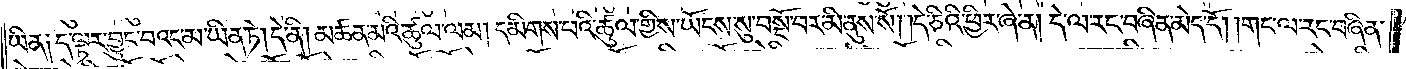ཡིན༑ ད་ལྟར་བྱུང་བའང་མ་ཡིན་ཏེ། དེ་ནི། མཚན་མའི་ཚུལ་ལམ། དམིགས་པའི་ཚུལ་གྱིས་ཡོངས་སུ་བསྔོ་བར་མི་ནུས་སོ། །དེ་ཅིའི་ཕྱིར་ཞེ་ན། དེ་ལ་རང་བཞིན་མེད་དོ། །གང་ལ་རང་བཞིན་
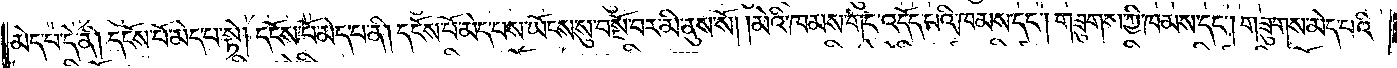མེད་པ་དེ་ནི། དངོས་པོ་མེད་པ་སྟེ། དངོས་པོ་མེད་པ་ནི། དངོས་པོ་མེད་པས་ཡོངས་སུ་བསྔོ་བར་མི་ནུས་སོ། །མེའི་ཁམས་གང་འདོད་པའི་ཁམས་དང༌། གཟུགས་ཀྱི་ཁམས་དང༌། གཟུགས་མེད་པའི་
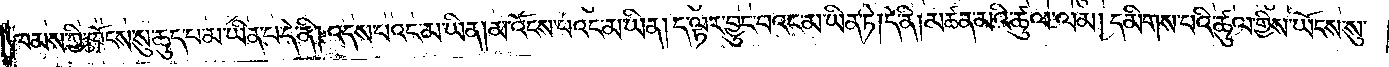ཁམས་ཀྱི་ཁོངས་སུ་ཆུད་པ་མ་ཡིན་པ་དེ་ནི། འདས་པའང་མ་ཡིན། མ་འོངས་པའང་མ་ཡིན། ད་ལྟར་བྱུང་བའང་མ་ཡིན་ཏེ། དེ་ནི། མཚན་མའི་ཚུལ་ལམ། དམིགས་པའི་ཚུལ་གྱིས་ཡོངས་སུ་
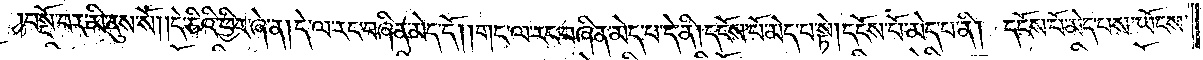བསྔོ་བར་མི་ནུས་སོ། །དེ་ཅིའི་ཕྱིར་ཞེ་ན། དེ་ལ་རང་བཞིན་མེད་དོ། །གང་ལ་རང་བཞིན་མེད་པ་དེ་ནི། དངོས་པོ་མེད་པ་སྟེ། དངོས་པོ་མེད་པ་ནི། དངོས་པོ་མེད་པས་ཡོངས་
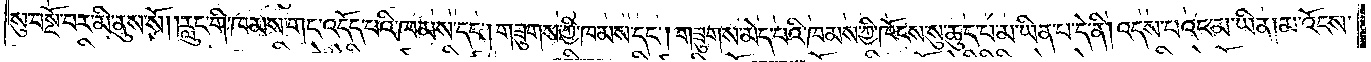སུ་བསྔོ་བར་མི་ནུས་སོ། །རླུང་གི་ཁམས་གང་འདོད་པའི་ཁམས་དང༌། གཟུགས་ཀྱི་ཁམས་དང༌། གཟུགས་མེད་པའི་ཁམས་ཀྱི་ཁོངས་སུ་ཆུད་པ་མ་ཡིན་པ་དེ་ནི། འདས་པའང་མ་ཡིན། མ་འོངས་
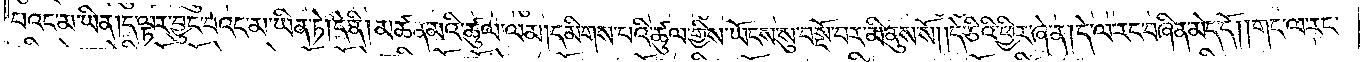པའང་མ་ཡིན། ད་ལྟར་བྱུང་བའང་མ་ཡིན་ཏེ། དེ་ནི། མཚན་མའི་ཚུལ་ལམ། དམིགས་པའི་ཚུལ་གྱིས་ཡོངས་སུ་བསྔོ་བར་མི་ནུས་སོ། །དེ་ཅིའི་ཕྱིར་ཞེ་ན། དེ་ལ་རང་བཞིན་མེད་དོ། །གང་ལ་རང་
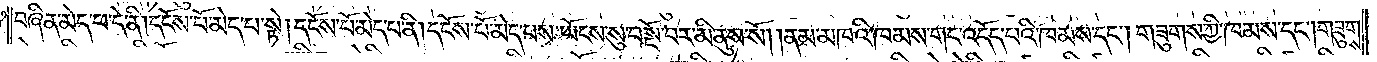བཞིན་མེད་པ་དེ་ནི། དངོས་པོ་མེད་པ་སྟེ། དངོས་པོ་མེད་པ་ནི། དངོས་པོ་མེད་པས་ཡོངས་སུ་བསྔོ་བར་མི་ནུས་སོ། །ནམ་མཁའི་ཁམས་གང་འདོད་པའི་ཁམས་དང༌། གཟུགས་ཀྱི་ཁམས་དང༌། གཟུགས་
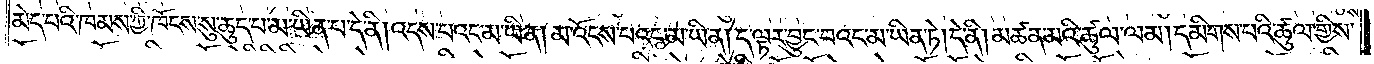མེད་པའི་ཁམས་ཀྱི་ཁོངས་སུ་ཆུད་པ་མ་ཡིན་པ་དེ་ནི། འདས་པའང་མ་ཡིན། མ་འོངས་པའང་མ་ཡིན། ད་ལྟར་བྱུང་བའང་མ་ཡིན་ཏེ། དེ་ནི། མཚན་མའི་ཚུལ་ལམ། དམིགས་པའི་ཚུལ་གྱིས་
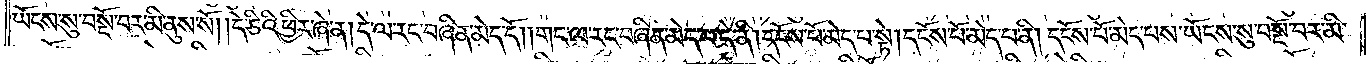ཡོངས་སུ་བསྔོ་བར་མི་ནུས་སོ། །དེ་ཅིའི་ཕྱིར་ཞེ་ན། དེ་ལ་རང་བཞིན་མེད་དོ། །གང་ལ་རང་བཞིན་མེད་པ་དེ་ནི། དངོས་པོ་མེད་པ་སྟེ། དངོས་པོ་མེད་པ་ནི། དངོས་པོ་མེད་པས་ཡོངས་སུ་བསྔོ་བར་མི་
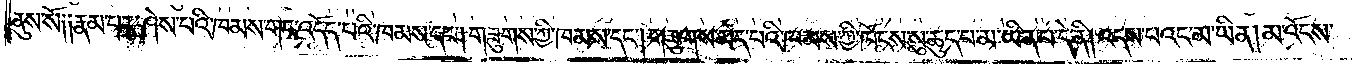ནུས་སོ༑ ༑རྣམ་པར་ཤེས་པའི་ཁམས་གང་འདོད་པའི་ཁམས་དང༌། གཟུགས་ཀྱི་ཁམས་དང༌། གཟུགས་མེད་པའི་ཁམས་ཀྱི་ཁོངས་སུ་ཆུད་པ་མ་ཡིན་པ་དེ་ནི། འདས་པའང་མ་ཡིན། མ་འོངས་
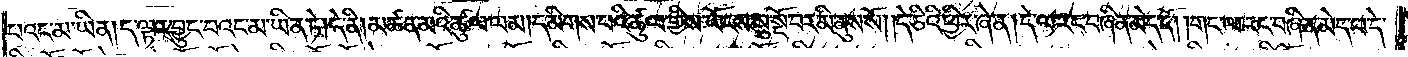པའང་མ་ཡིན། ད་ལྟར་བྱུང་བའང་མ་ཡིན་ཏེ། དེ་ནི། མཚན་མའི་ཚུལ་ལམ། དམིགས་པའི་ཚུལ་གྱིས་ཡོངས་སུ་བསྡོ་བར་མི་ནུས་སོ། །དེ་ཅིའི་ཕྱིར་ཞེ་ན། དེ་ལ་རང་བཞིན་མེད་དོ། །གང་ལ་རང་བཞིན་མེད་པ་དེ་
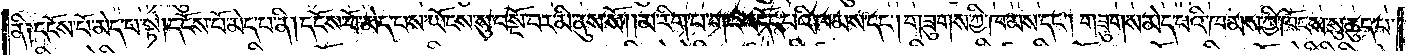ནི༑ དངོས་པོ་མེད་པ་སྟེ། དངོས་པོ་མེད་པ་ནི། དངོས་པོ་མེད་པས་ཡོངས་སུ་བསྔོ་བར་མི་ནུས་སོ། །མ་རིག་པ་གང་འདོད་པའི་ཁམས་དང༌། གཟུགས་ཀྱི་ཁམས་དང༌། གཟུགས་མེད་པའི་ཁམས་ཀྱི་ཁོངས་སུ་ཆུད་པ་
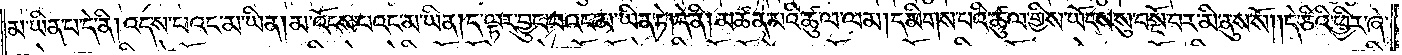མ་ཡིན་པ་དེ་ནི། འདས་པའང་མ་ཡིན། མ་འོངས་པའང་མ་ཡིན། ད་ལྟར་བྱུང་བའང་མ་ཡིན་ཏེ། དེ་ནི། མཚན་མའི་ཚུལ་ལམ། དམིགས་པའི་ཚུལ་གྱིས་ཡོངས་སུ་བསྔོ་བར་མི་ནུས་སོ། དེ་ཅིའི་ཕྱིར་ཞེ་
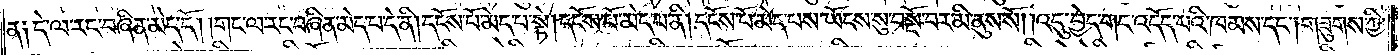ན༑ དེ་ལ་རང་བཞིན་མེད་དོ། །གང་ལ་རང་བཞིན་མེད་པ་དེ་ནི། དངོས་པོ་མེད་པ་སྟེ། དངོས་པོ་མེད་པ་ནི། དངོས་པོ་མེད་པས་ཡོངས་སུ་བསྔོ་བར་མི་ནུས་སོ། འདུ་བྱེད་གང་འདོད་པའི་ཁམས་དང༌། གཟུགས་ཀྱི་
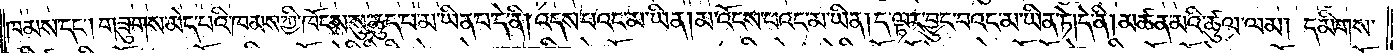ཁམས་དང༌། གཟུགས་མེད་པའི་ཁམས་ཀྱི་ཁོངས་སུ་ཆུད་པ་མ་ཡིན་པ་དེ་ནི། འདས་པའང་མ་ཡིན། མ་འོངས་པའང་མ་ཡིན། ད་ལྟར་བྱུང་བའང་མ་ཡིན་ཏེ། དེ་ནི། མཚན་མའི་ཚུལ་ལམ། དམིགས་
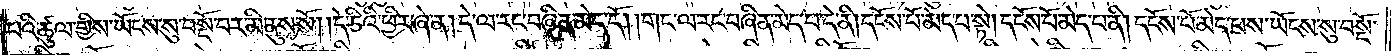པའི་ཚུལ་གྱིས་ཡོངས་སུ་བསྔོ་བར་མི་ནུས་སོ། །དེ་ཅིའི་ཕྱིར་ཞེ་ན། དེ་ལ་རང་བཞིན་མེད་དོ། །གང་ལ་རང་བཞིན་མེད་པ་དེ་ནི། དངོས་པོ་མེད་པ་སྟེ། དངོས་པོ་མེད་པ་ནི། དངོས་པོ་མེད་པས་ཡོངས་སུ་བསྔོ་
